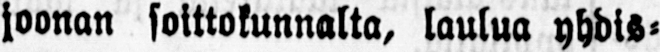joonan soittokunnalta, laulua yhdis-
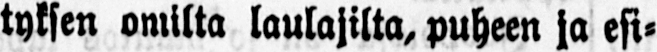tyksen omilta laulajilta, puheen ja esi-
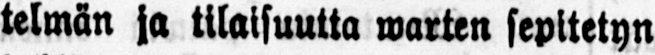telmän ja tilaisuutta warten sepitetyn
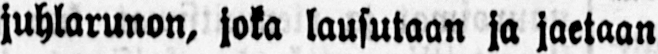juhlarunon, joka lausutaan ja jaetaan
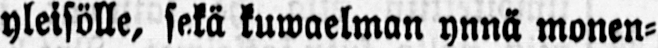yleisölle, sekä kuwaelman ynnä monen-
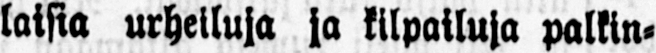laisia urheiluja ja kilpailuja palkin-
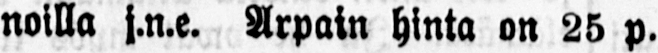noilla j.n.e. Arpain hinta on 25 p.
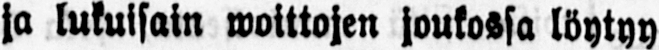ja lukuisain woittojen joukossa löytyy
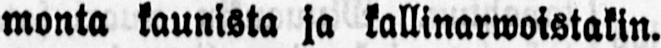monta kaunista ja kallinarwoistakin.
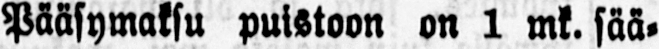Pääsymaksu puistoon on 1 mk. sää-
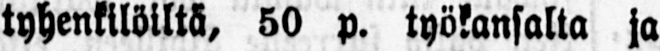tyhenkilöiltä, 50 p. työkansalta ja
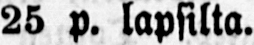25 p. lapsilta.
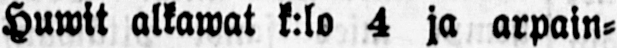Huwit alkawat k:lo 4 ja arpain-
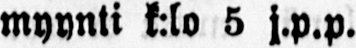myynti k:lo 5 j.p.p.
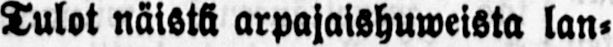Tulot näistä arpajaishuweista lan-
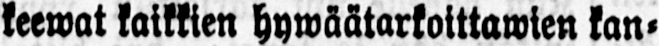keewat kaikkien hywäätarkoittawien kan-
